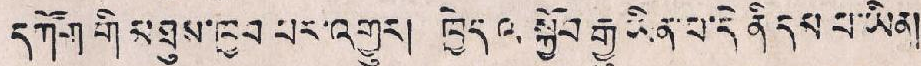དཀོག་གི་མཐུས་ཁྱབ་པར་འགྱུར། ཁྱེད འ སྐྱོབ་རྒྱུ་ཡིན་པ་དེ་ནི་དམ་པ་ཡིན།
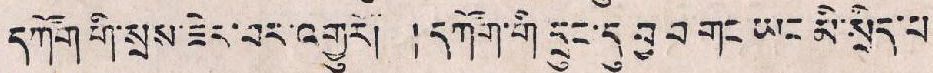དཀོག་གི་སྲས་ཟེར་བར་འགྱུརོ། །དཀོག་གི་དྲུང་དུ་བྱ་བ་གང་ཡང་མི་སྲིད་པ་
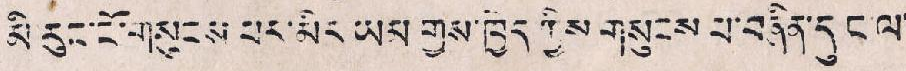མི་རུང་ངོ་གསུངས་པར་མིར ཡམ་གྱས་ཁྱེད་ཀྱིས་གསུངས་པ་བཞིན་དུང་ལ་
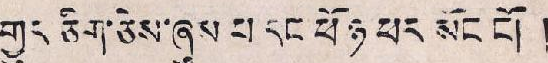གྱུར ཅིག་ཅེས་ཞུམ པ་དང ཕོ ཉ ཕར་མོང་ངོ། །
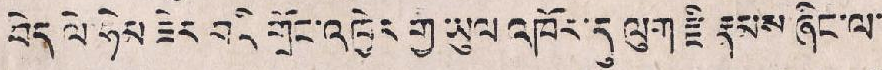བདེ ལེ་ཧེམ་ཟེར་བའི་གྲོང་འཁྱེར་གྱ་ཡུལ་འཁོར་དུ་ལུག་རྫི་རྣམས་ཞིང་ལ་
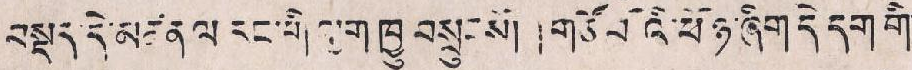བསྡད་དེ་མཚན་ལ རང་གི་ལུག་ཁྱུ བསྲུངསོ། །གཙོ་བོའི་ཕོ་ཉ་ཞིག དེ་དག གི་
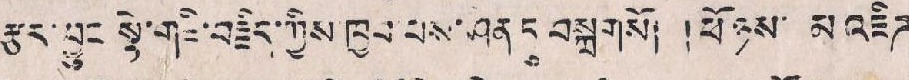རྩར་བྱུར སྟེ་གཟི་བརྗིད་ཀྱིས་ཁྱབ་པས་ཤན དུ བསྐྲགསོ། །ཕོ་ཉས་ མ་འཇིཊ་
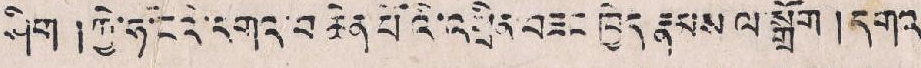ཤིག །ཀྱེ་ཧ་ངའི་དགའ་བ་ཆེན་པོའི་འཕྲིན་བཟང ཁྱེད རྣམས ལ་སྒྲོག །དགའ
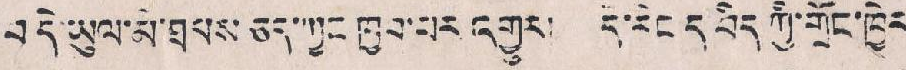བདེ་ཡུལ་མི་ཐམས་ཅད་ཀྱང་ཁྱབ་པར་འགྱུར། དེ་རིང ད བིད་ཀྱི་གྲོང་ཁྱེར་
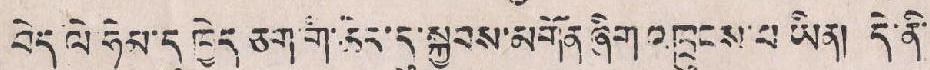བདེ་ལེ་ཧེམ་དུ་ཁྱེད་ཅག་གི་ཆིར་དུ་སྐྱབས་མགོན་ཞིག་འཁྲུངས་པ་ཡིན། །དེ་ནི་
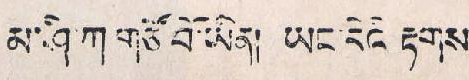མ་ཤི་ཀ གཙོ་བོ་ཡིན། ཡང་དེའི་ རྟགས་
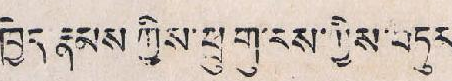ཁྱེད རྣམས ཀྱིས་ཕྲུ་གུ་རས་ཀྱིས་བཏུམ་
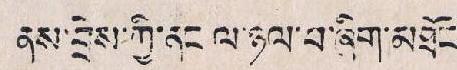ནས་བྲེས་ཀྱི་ནང ལ་ཉལ་བ་ཞིག་མཐོང་
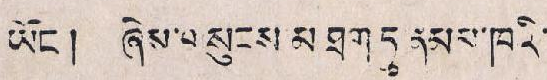ཡོང། ཞེས་གསྲུངས་མ་ཐག་ཏུ་ནམས་ཁའི་
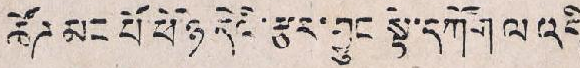ཚོཊ མང པོ ཕོ་ཉ དེའི་རྩར་བྱུང སྟེ་དཀོག ལ་འདི་
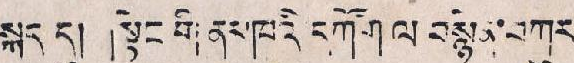སྐད དུ། །སྟེང གི ནམ་ཁའི དཀོག ལ བསྙེན་བཀུར
